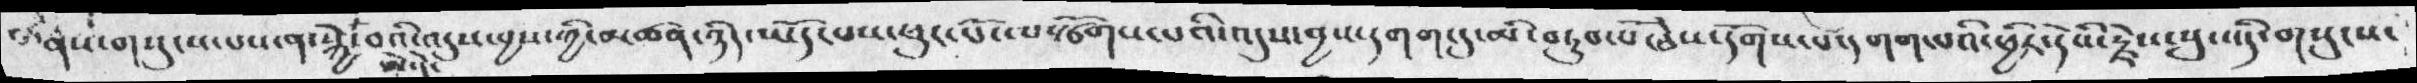ནས་གསུངས་པས་ན་སྐྱེ་ཨེ་དེ་བའི་འདུས་བྱས་ཀྱི་མཚན་ཉིད་ཡོད་པས་ཕུང་པོ་ལསྩོགས་པའི་འདུས་བྱས་དགག་དུ་མི་བཏུབ་པོ་ཅེས་དོགས་པ་དགག་པའི་ཕྱིར་དེའི་རྗེས་སུ་འདི་གསུངས་
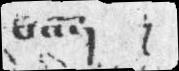བའོ་།   །
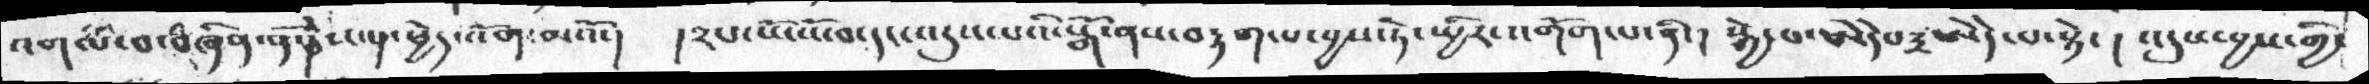འགལ་བ་བཞིན་ནོ་ཅེས་སྔ་ཕྱེད་འོག་མའོ་།   ། ༢པ་སོ་སོ་བ་དང་འདུས་པའི་སྒོ་ནས་བརྟག་པ་བྱས་ཏེ་སྤྱིར་འགོག་པ་ནི་།  སྐྱེ་བ་ཨེདེཔ༣ཨེདེ་པ་སྟེ་  ། འདུས་བྱས་གྱི་
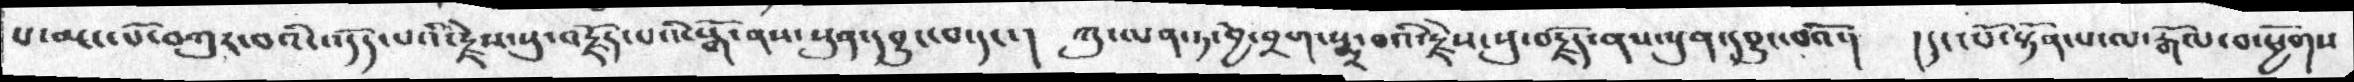པ་མང་པོ་བཀུར་བའི་འདོད་པའི་རྗེས་སུ་བརྗོད་པའི་སྒོ་ནས་སུན་དབྱུང་བ་དང་།  ཀུ་མན་ཏ་བྱེ་བྲག་སྨྲ་བའི་རྗེས་སུ་བརྗོད་ནས་སུན་དབྱུང་བའོ་།    ། དང་པོ་སྟོན་པ་ལ་རྒོལ་བ་ཕྱོགས་
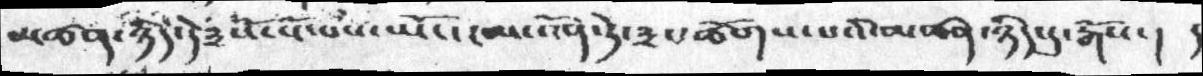མཚན་ཉིད་དེ༣སོ་སོ་པས་ཡོང་ངམ་འོན་ཏེ་༣པ་ཚོགས་པའི་མཚན་ཉིད་དུ་རྒོས་ ། །
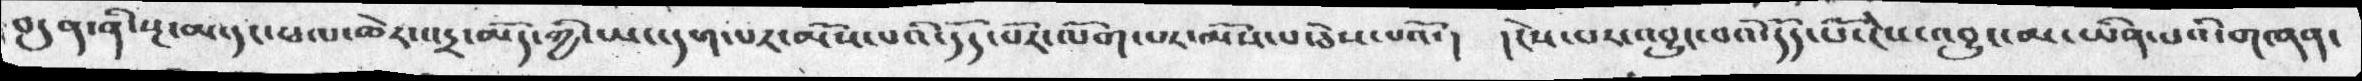བདུན་ནི་སྔ་མ་དང་ཕལ་ཆེར་འདྲ་མོད་ཀྱི་ཡང་དག་པར་མོས་པའོ་དོད་པར་ལོག་པར་མོས་པ་ཅེས་པའོ་།  ། ངེས་པར་འབྱུང་བའི་དོད་པོ་ངེས་འབྱུང་མ་ཡིན་པའི་གཤན་
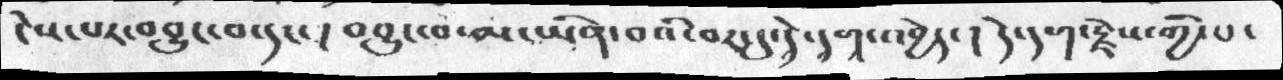ངེས་པར་འབྱུང་བ་དང་ ། འབྱུང་བ་མ་ཡིན་བའི་བར་དུ་དེ་དག་འབྱེད་ ། དེ་དག་རྗེས་གྱི་པ་
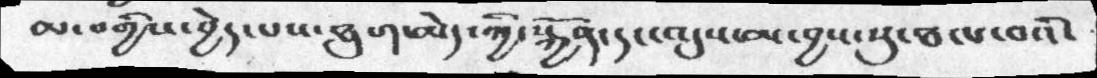མ་བགྱིས་བྱེད་པས་ཐུག་མེད་ཀྱི་སྐྱོན་དང་འདུས་མ་བྱས་སུ་ཐལ་བའི་
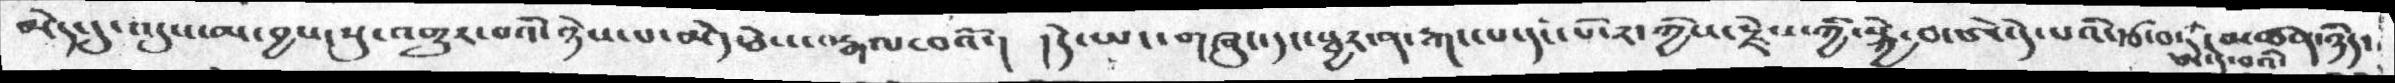མེད་དུ་འདུས་མ་བྱས་སུ་འགྱུར་བའི་ཉེས་པ་མེད་ཅེས་བརྒལ་བའོ་།  །དེ་ཡང་གཞུང་དང་སྦྱར་ན་རྐང་པ་དངཔོ་༢་ཀྱིས་རྗེས་ཀྱ་སྐྱེ་བ་ཨེ་དེ་པའི་རྩ་བ་ཨེ་དེ་བའི་མཚན་ཉིད་
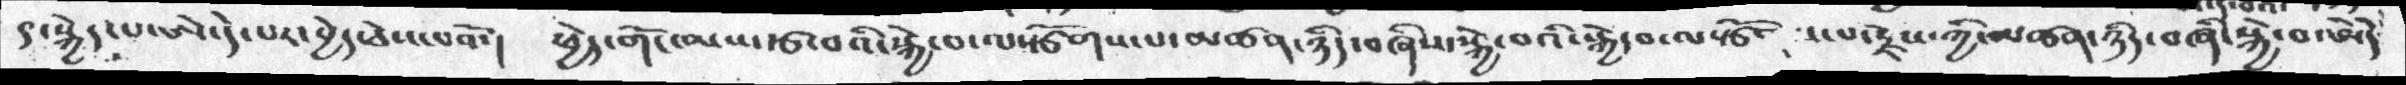༤་སྐྱེད་པ་ཨེ་དེ་པར་བྱེད་ཅེས་པའོ་།  ཕྱེད་གོང་མས་རྩ་བའི་སྐྱེ་བ་ལསྩོགས་པ་མཚན་ཉིད་བཞིས་སྐྱེ་བའི་སྐྱེ་བསྩོགས་པ་རྗེས་ཀྱི་མཚན་ཉིད་བཞི་སྐྱེ་བ་ཨེདེ
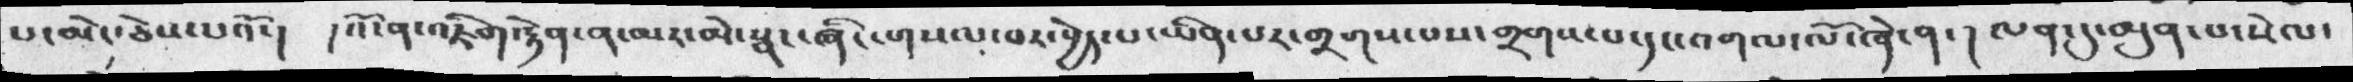པ་མེད་ཅེས་པའོ་། །འོ་ན་འཇིག་རྟེན་ན་མར་མེ་སྣང་ཞིང་གསལ་བར་བྱེད་པ་ཡིན་པར་གྲགས་པས་གྲགས་པ་དང་འགལ་ལོ་ཞེ་ན་། ལན་དུ་མུན་པ་སེལ་
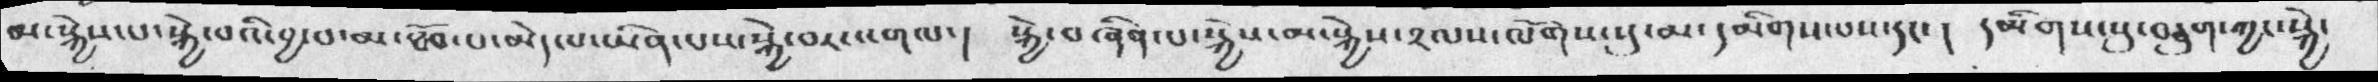མ་སྐྱེས་པ་སྐྱེ་བའི་བྱ་བ་མ་ཐོབ་པ་མེད་པ་ཡིན་པས་སྐྱེ་བར་འགལ་། སྐྱེ་བཞིན་པ་སྐྱེས་མ་སྐྱེས་༢ལས་ལོགས་སུ་མ་དམིགས་པས་དང་ ། དམིགས་སུ་བཅུག་ཀྱང་སྐྱེ་
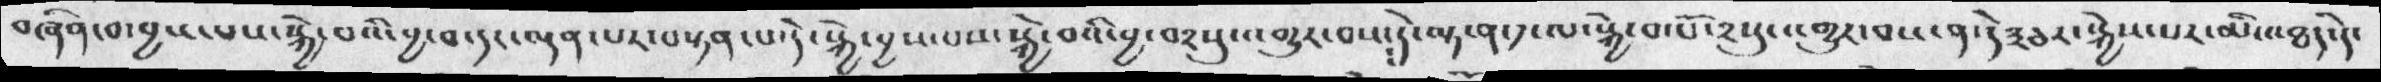བཞིན་པ་བྱས་པས་སྐྱེ་བའི་བྱ་བ་དང་ལྡན་པར་བསྟན་པ་དེ་སྐྱེ་བྱས་པས་སྐྱེ་བའི་བྱ་བ༢སུ་འགྱུར་བས་དེ་ལྟ་ན་༡་ལ་སྐྱེ་བ་པོ་༢སུ་འགྱུར་བས་ན་དེ༣བར་སྐྱེས་པར་མི་འཐད་དེ་
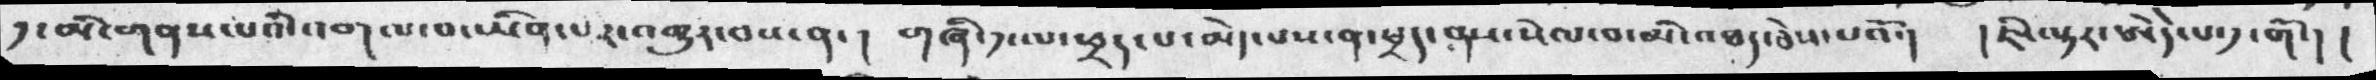༡་མི་གནས་པའི་འགལ་བ་ཡིན་པར་འགྱུར་བས་ན་ །  གཞི་༡་ལ་ཕྲད་པ་མེད་པས་ན་ཕྲད་ནས་སེལ་བ་མི་འཐད་ཅེས་པའོ་། །ཇི་ལྟར་ཨེདེ་པ་༡་གོ་། །
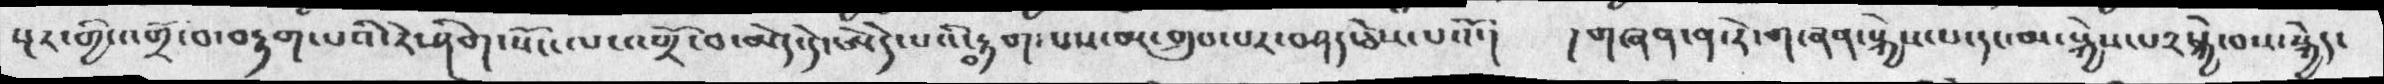སྔར་གྱི་འགྲོ་བ་བརྟག་པའི་རེ་ཤིག་སོང་ལ་འགྲོ་བ་མེད་དེ་ཨེདེ་པའི་བརྟག་པས་བར་གྲུབ་པར་བཤད་ཅེས་པའོ་།   །གཞན་ན་རེ་གཞན་སྐྱེས་པ་དང་མ་སྐྱེས་པ༢སྐྱེ་བས་སྐྱེད་
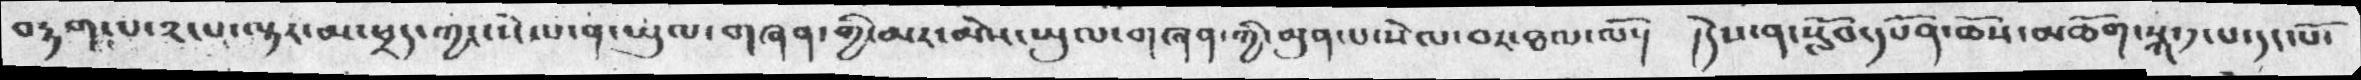བརྟག་པ་༢་པ་ལྟར་མ་ཕྲད་ཀྱང་སེལ་ན་ཡུལ་གཞན་གྱི་མར་མེས་ཡུལ་གཞན་གྱི་མུན་སེལ་བར་ཐལ་ལོ་། །དེས་ན་སློབ་དཔོན་ཆོས་མཆོག་སྐ་༡་པ་དང་པོ་
